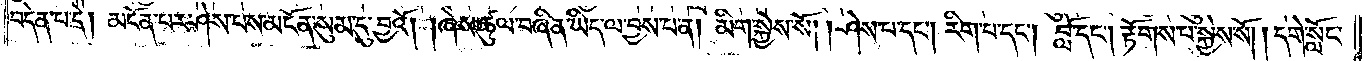བདེན་པ་དེ། མངོན་པར་ཤེས་པས་མངོན་སུམ་དུ་བྱའོ། །ཞེས་ཚུལ་བཞིན་ཡིད་ལ་བྱས་པ་ན། མིག་སྐྱེས་སོ། །ཤེས་པ་དང༌། རིག་པ་དང༌། བློ་དང༌། རྟོགས་པ་སྐྱེས་སོ། །དགེ་སློང་
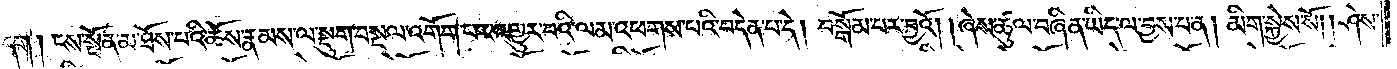དག །ངས་སྔོན་མ་ཐོས་པའི་ཆོས་རྣམས་ལ་སྡུག་བསྔལ་འགོག་པར་འགྱུར་བའི་ལམ་འཕགས་པའི་བདེན་པ་དེ། བསྒོམ་པར་བྱའོ། །ཞེས་ཚུལ་བཞིན་ཡིད་ལ་བྱས་པ་ན། མིག་སྐྱེས་སོ། །ཤེས་
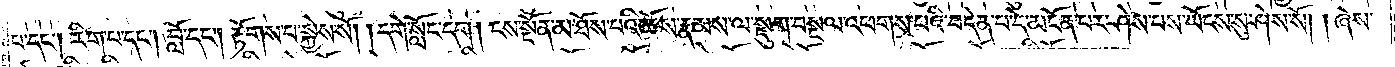པ་དང༌། རིག་པ་དང༌། བློ་དང༌། རྟོགས་པ་སྐྱེས་སོ། །དགེ་སློང་དག། ངས་སྔོན་མ་ཐོས་པའི་ཆོས་རྣམས་ལ་སྡུག་བསྔལ་འཕགས་པའི་བདེན་པ་དེ་མངོན་པར་ཤེས་པས་ཡོངས་སུ་ཤེས་སོ། །ཞེས་
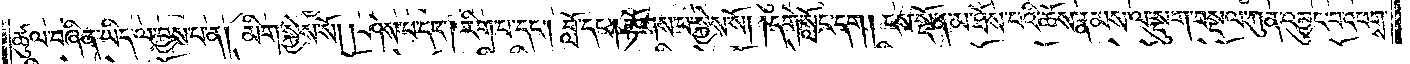ཚུལ་བཞིན་ཡིད་ལ་བྱས་པ་ན། མིག་སྐྱེས་སོ། །ཤེས་པ་དང༌། རིག་པ་དང༌། བློ་དང༌། རྟོགས་པ་སྐྱེས་སོ། །དགེ་སློང་དག །ངས་སྔོན་མ་ཐོས་པའི་ཆོས་རྣམས་ལ་སྡུག་བསྔལ་ཀུན་འབྱུང་བ་འཕགས་
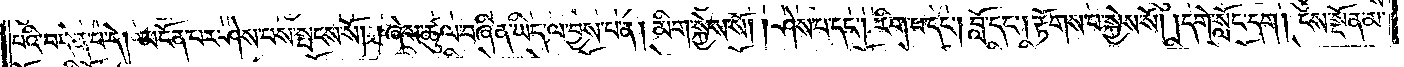པའི་བདེན་པ་དེ། མངོན་པར་ཤེས་པས་སྤངས་སོ། །ཞེས་ཚུལ་བཞིན་ཡིད་ལ་བྱས་པ་ན། མིག་སྐྱེས་སོ། །ཤེས་པ་དང༌། རིག་པ་དང༌། བློ་དང༌། རྟོགས་པ་སྐྱེས་སོ། །དགེ་སློང་དག །ངས་སྔོན་མ་
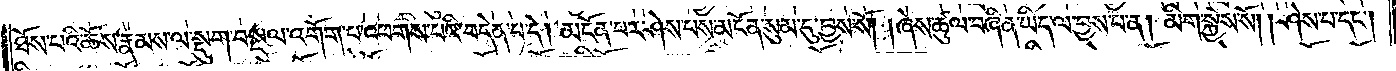ཐོས་པའི་ཆོས་རྣམས་ལ་སྡུག་བསྔལ་འགོག་པ་འཕགས་པའི་བདེན་པ་དེ། མངོན་པར་ཤེས་པས་མངོན་སུམ་དུ་བྱས་སོ། །ཞེས་ཚུལ་བཞིན་ཡིད་ལ་བྱས་པ་ན། མིག་སྐྱེས་སོ། །ཤེས་པ་དང༌།
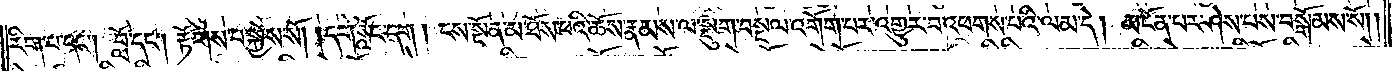རིག་པ་དང༌། བློ་དང༌། རྟོགས་པ་སྐྱེས་སོ། །དགེ་སློང་དག །ངས་སྔོན་མ་ཐོས་པའི་ཆོས་རྣམས་ལ་སྡུག་བསྔལ་འགོག་པར་འགྱུར་བ་འཕགས་པའི་ལམ་དེ། མངོན་པར་ཤེས་པས་བསྒོམས་སོ། །
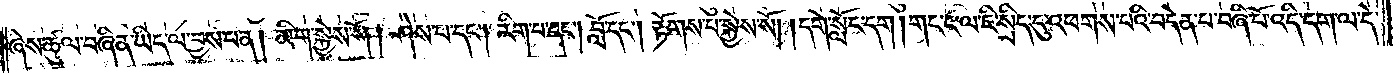ཞེས་ཚུལ་བཞིན་ཡིད་ལ་བྱས་པ་ན། མིག་སྐྱེས་སོ། །ཤེས་པ་དང༌། རིག་པ་དང༌། བློ་དང༌། རྟོགས་པ་སྐྱེས་སོ། །དགེ་སློང་དག །གང་ང་ལ་ཇི་སྲིད་དུ་འཕགས་པའི་བདེན་པ་བཞི་པོ་འདི་དག་ལ་དེ་
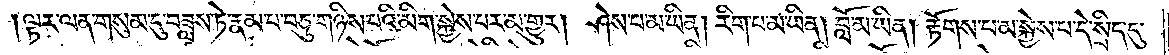ལྟར་ལན་གསུམ་དུ་བཟླས་ཏེ་རྣམ་པ་བཅུ་གཉིས་པའི་མིག་སྐྱེས་པར་མ་གྱུར། ཤེས་པ་མ་ཡིན། རིག་པ་མ་ཡིན། བློ་མ་ཡིན། རྟོགས་པ་མ་སྐྱེས་པ་དེ་སྲིད་དུ་
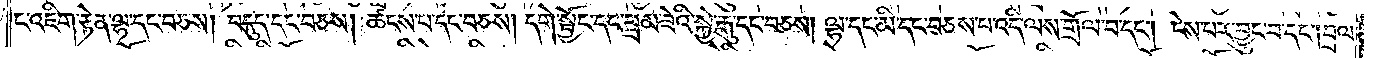ང་འཇིག་རྟེན་ལྷ་དང་བཅས། བདུད་དང་བཅས། ཚངས་པ་དང་བཅས། དགེ་སྦྱོང་དང་བྲམ་ཟེའི་སྐྱེ་རྒུ་དང་བཅས། ལྷ་དང་མི་དང་བཅས་པ་འདི་ལས་གྲོལ་བ་དང༌། ངེས་པར་བྱུང་བ་དང༌། བྲལ་
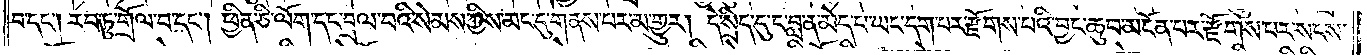བ་དང༌། རབ་ཏུ་གྲོལ་བ་དང༌། ཕྱིན་ཅི་ལོག་དང་བྲལ་བའི་སེམས་ཀྱིས་མང་དུ་གནས་པར་མ་གྱུར། དེ་སྲིད་དུ་ང་བླ་ན་མེད་པ་ཡང་དག་པར་རྫོགས་པའི་བྱང་ཆུབ་མངོན་པར་རྫོགས་པར་སངས་
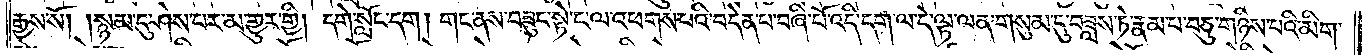རྒྱས་སོ། །སྙམ་དུ་ཤེས་པར་མ་གྱུར་གྱི། དགེ་སློང་དག། གང་ནས་བཟུང་སྟེ་ང་ལ་འཕགས་པའི་བདེན་པ་བཞི་པོ་འདི་དག་ལ་དེ་ལྟ་ལན་གསུམ་དུ་བཟླས་ཏེ་རྣམ་པ་བཅུ་གཉིས་པའི་མིག་
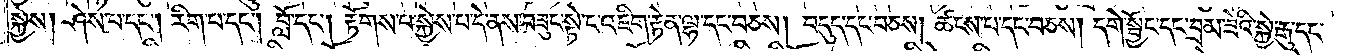སྐྱེས། ཤེས་པ་དང༌། རིག་པ་དང༌། བློ་དང༌། རྟོགས་པ་སྐྱེས་པ་དེ་ནས་བཟུང་སྟེ་ང་འཇིག་རྟེན་ལྷ་དང་བཅས། བདུད་དང་བཅས། ཚངས་པ་དང་བཅས། དགེ་སྦྱོང་དང་བྲམ་ཟེའི་སྐྱེ་རྒུ་དང་
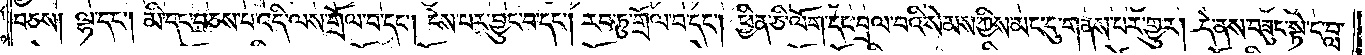བཅས། ལྷ་དང༌། མི་དང་བཅས་པ་འདི་ལས་གྲོལ་བ་དང༌། ངེས་པར་བྱུང་བ་དང༌། རབ་ཏུ་གྲོལ་བ་དང༌། ཕྱིན་ཅི་ལོག་དང་བྲལ་བའི་སེམས་ཀྱིས་མང་དུ་གནས་པར་གྱུར། དེ་ནས་བཟུང་སྟེ་ང་བླ་
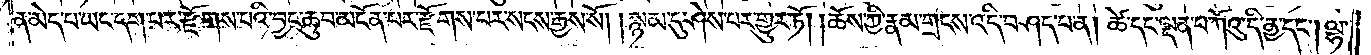ན་མེད་པ་ཡང་དག་པར་རྫོགས་པའི་བྱང་ཆུབ་མངོན་པར་རྫོགས་པར་སངས་རྒྱས་སོ། །སྙམ་དུ་ཤེས་པར་གྱུར་ཏོ། །ཆོས་ཀྱི་རྣམ་གྲངས་འདི་བཤད་པ་ན། ཚེ་དང་ལྡན་པ་ཀོའུ་དི་ནྱ་དང༌། ལྷ་
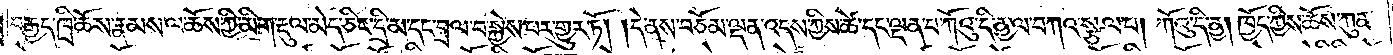བརྒྱད་ཁྲི་ཆོས་རྣམས་ལ་ཆོས་ཀྱི་མིག་རྡུལ་མེད་ཅིང་དྲི་མ་དང་བྲལ་བ་སྐྱེས་པར་གྱུར་ཏོ། །དེ་ནས་བཅོམ་ལྡན་འདས་ཀྱིས་ཚེ་དང་ལྡན་པ་ཀོའུ་དི་ནྱ་ལ་བཀའ་སྩལ་པ། ཀོའུ་དི་ནྱ། ཁྱོད་ཀྱིས་ཆོས་ཀུན་
